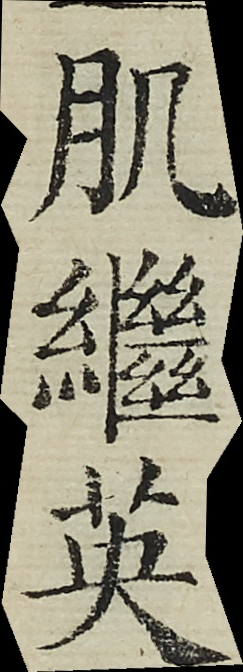肌繼英
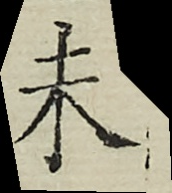未
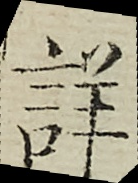詳
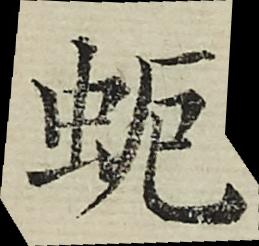蚅
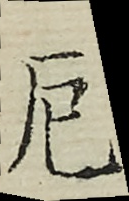厄
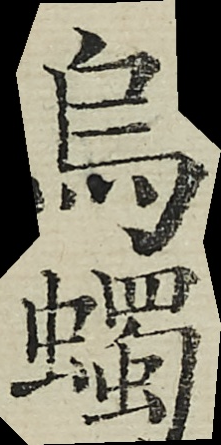烏蠋
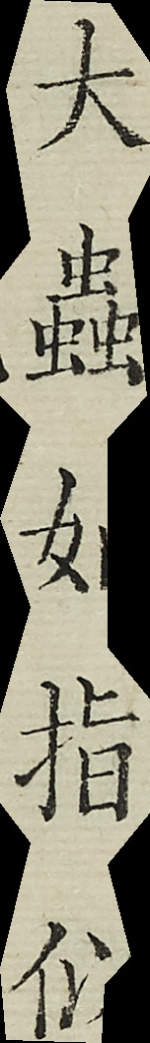大蟲如指似
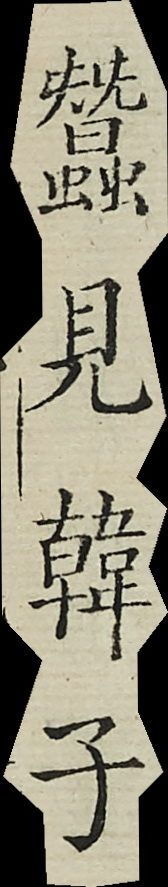蠶見韓子
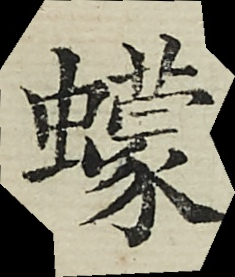蠓
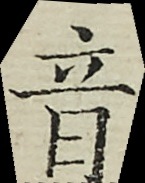音
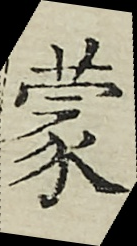蒙
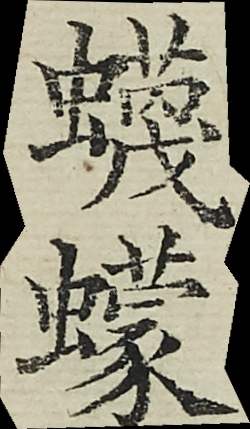蠛蠓
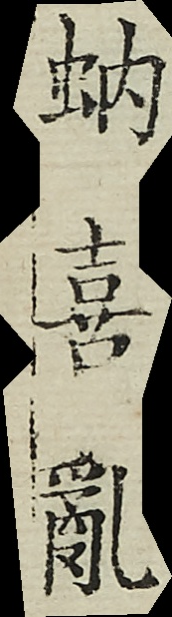蚋喜亂
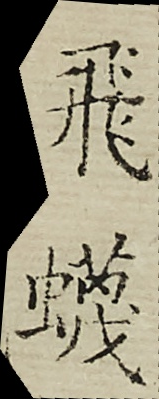飛蠛
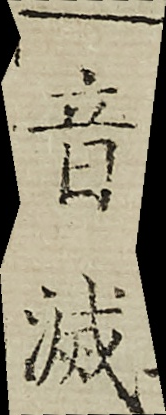音滅
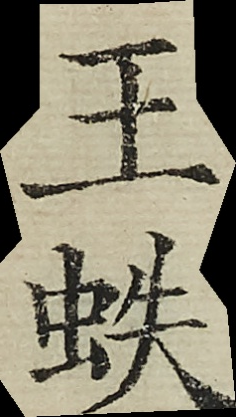王蛈
